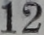12
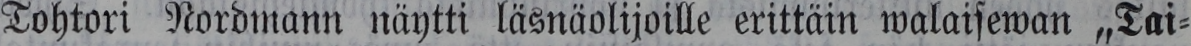Tohtori Nordmann näytti läsnäolijoille erittäin walaisewan „Tai-
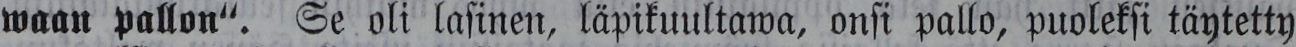waan pallon". Se oli lasinen, läpikuultawa, onsi pallo, puoleksi täytetty
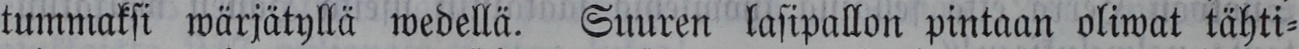tummaksi wärjätyllä wedellä. Suuren lasipallon pintaan oliwat tähti-
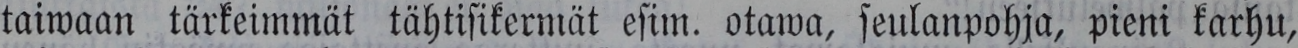taiwaan tärkeimmät tähtisikermät esim, otawa, seulanpohja, pieni karhu,
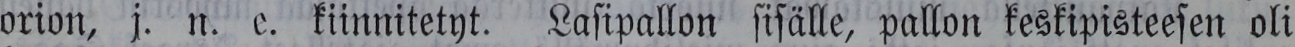orion, j. n.e. kiinnitetyt. Lasipallon sisälle, pallon keskipisteesen oli
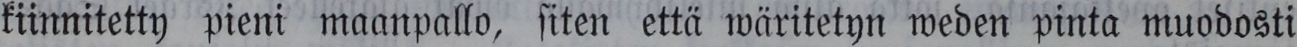kiinnitetty pieni maanpallo, siten että wäritetyn weden pinta muodosti
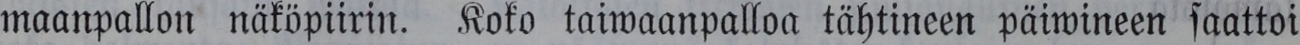maanpallon näköpiirin. Koko taiwaanpalloa tähtineen päiwineen saattoi
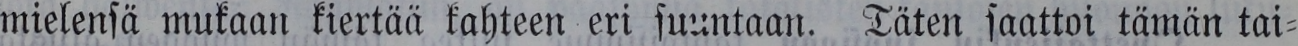mielensä mukaan kiertää kahteen eri suuntaan. Täten saattoi tämän tai-
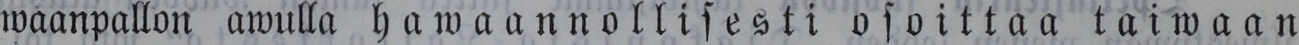waanpallon awulla hawaannollisesti osoittaa taiwaan
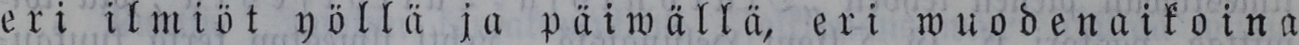eri ilmiöt yöllä ja päiwällä, eri wuodenaikoina
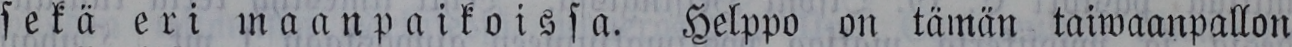sekä eri maanpaikoissa. Helppo on tämän taiwaanpallon
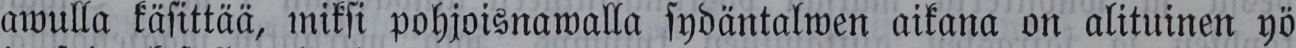awulla käsittää, miksi pohjoisnawalla sydäntalwen aikana on alituinen yö
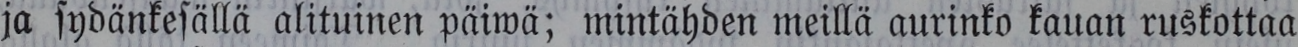ja sydänkesällä alituinen päiwä; mintähden meillä aurinko kauan ruskottaa
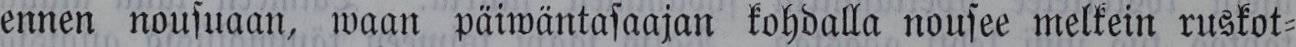ennen nousuaan, waan päiwäntasaajan kohdalla nousee melkein ruskot-
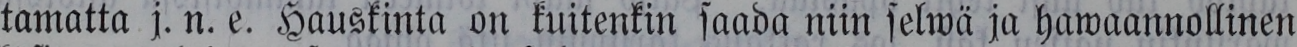tamatta j .n.e. Hauskinta on kuitenkin saada niin selwä ja hawaannollinen
